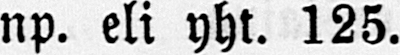np. eli yht. 125.
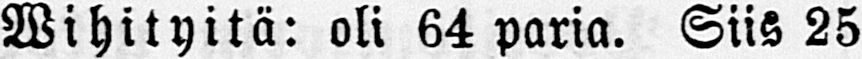Wihityitä: oli 64 paria. Siis 25
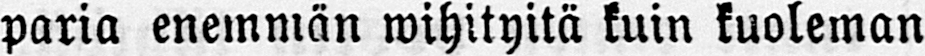paria enemmän wihityitä kuin kuoleman
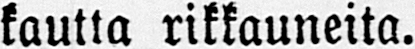kautta rikkauneita.
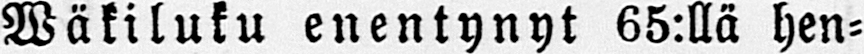Wäkiluku enentynyt 65:llä hen-
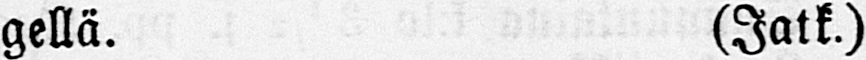gellä. (Jatk.)
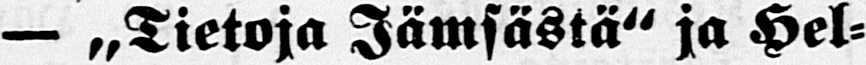— „Tietoja Jämsästä" ja Hel-
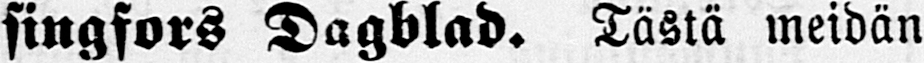singfors Dagblad. Tästä meidän
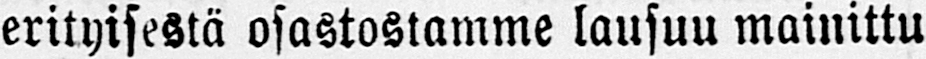erityisestä osastostamme lausuu mainittu
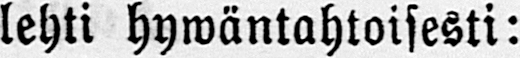lehti hywäntahtoisesti:
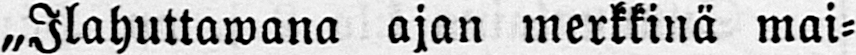„Ilahuttawana ajan merkkinä mai-
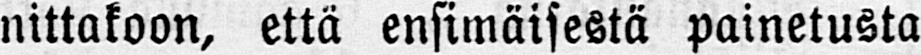nittakoon, että ensimäisestä painetusta
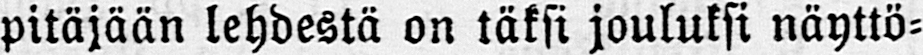pitäjään lehdestä on täksi jouluksi näyttö-
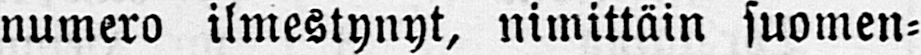numero ilmestynyt, nimittäin suomen-
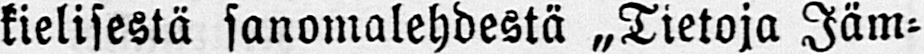kielisestä sanomalehdestä „Tietoja Jäm-
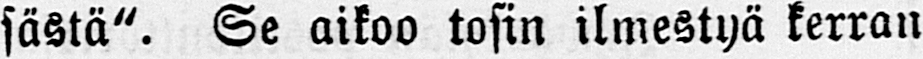sästä". Se aikoo tosin ilmestyä kerran
